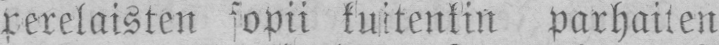perelaisten sopii kuitenkin parhaiten
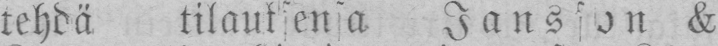tehdä tilauksensa Jansson &
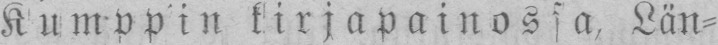Kumppin kirjapainossa, Län-
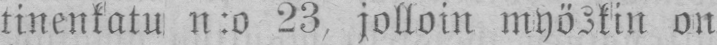tinenkatu n:o 23, jolloin myöskin on
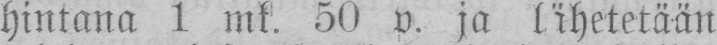hintana 1 mk. 50 p. ja lähetetään
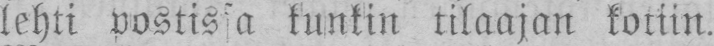lehti postissa tunkin tilaajan kotiin.
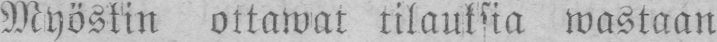Myöskin ottawat tilauksia wastaan
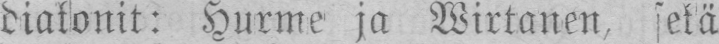diakonit: Hurme ja Wirtanen, sekä
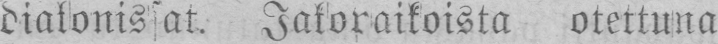diakonissat. Jakopaikoista otettuna
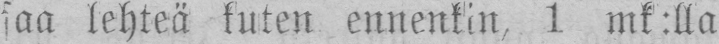saa lehteä kuten ennenkin, 1 mk:lla
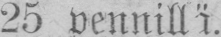25 pennillä.
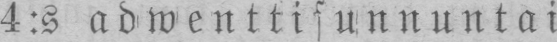4:s adwenttisunnuntai.
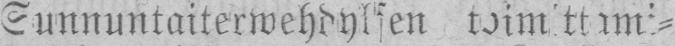Sunnuntaiterwehdyksen toimittami-
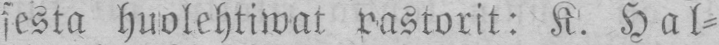sesta huolehtiwat pastorit: K. Hal-
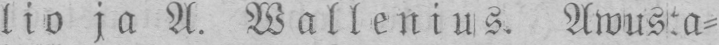lio ja A. Wallenius. Awusta-
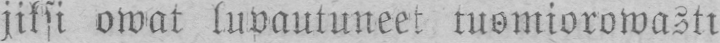jiksi owat lupautuneet tuomiorowasti
